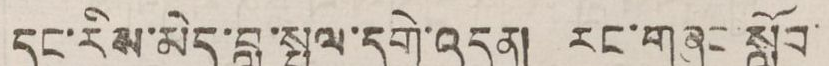དང་རིས་མེད་བླ་སྤྲུལ་དགེ་འདུན། རང་གཞུང་སློབ་
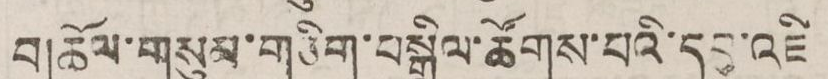བ།ཆོལ་གསུམ་གཅིག་བསྒྲིལ་ཚོགས་པའི་དབུ་འཇི
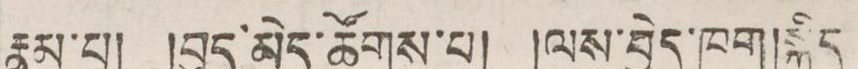རྣམ་པ། །བུད་མེད་ཚོགས་པ། །ལས་བྱེད་ཁག།སྐྱིད་
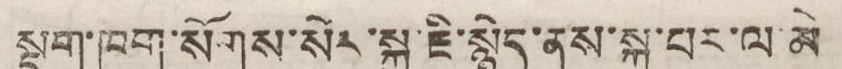སྡུག་ཁག་སོགས་སེར་སྐྱ་ཇི་སྙེད་ནས་སྐུ་པུར་ལ་མེ་
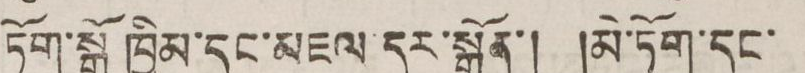ཏོག་སྒོ ཁྱིམ་དང་མཇལ་དར་སྒྲོན་། །མེ་ཏོག་དང་
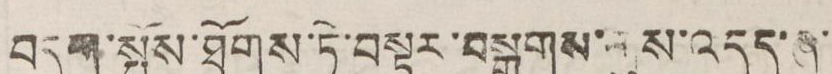བདུག་སྤོས་ཐོགས་ཏེ་བསྟན་བསྒྲགས་གུས་འདུད་ཞུ་
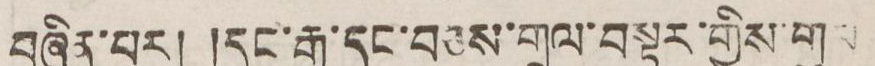བཞིན་པར། །དུང་རྒྱ་དང་བཅས་གྲལ་བསྟར་གྱིས་གུས
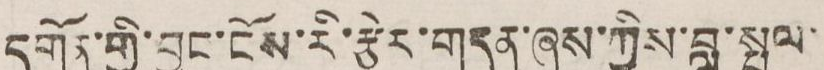དགོན་གྱི་བྱང་ངོས་རི་རྩེར་གདན་ཞུས་ཀྱིས་བླ་སྤྲུལ་
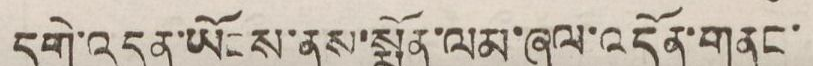དགེ་འདུན་ཡོངས་ནས་སྨོན་ལམ་ཞལ་འདོན་གནང་
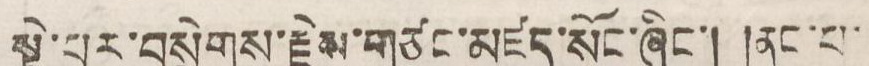སྟེ་པུར་བསྲེགས་རྗེས་གཙང་མཛད་སོང་ཞིང་། །ནང་པ་
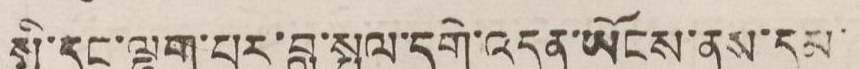སྤྱི་དང་ལྷག་པར་བླ་སྤྲུལ་དགེ་འདུན་ཡོངས་ནས་དམ་
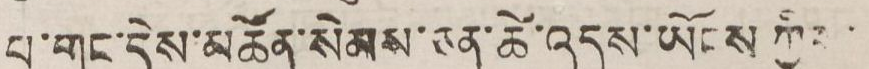པ་གང་དེས་མཚོན་སེམས་ཅན་ཚེ་འདས་ཡོངས ཀྱིས་
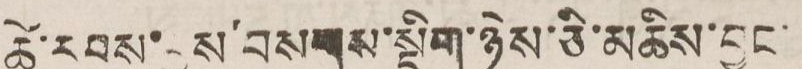ཚེ་རབས་བྱས་བསགས་སྡིག་ཉེས་ཅི་མཆིས་བྱང་
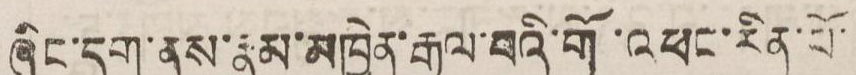ཞིང་དག་ནས་རྣམ་མཁྱེན་རྒྱལ་བའི་གོ་འཕང་རིན་པོ་
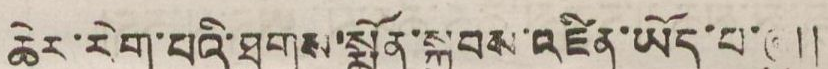ཆེར་རིག་པའི་ཐུགས་སྨོན་སྐྱབས་འཛིན་ཡོད་པ་ཞུ།།
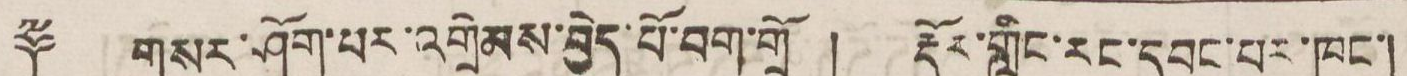༈ གསར་ཤོག་པར་འགྲེམས་བྱེད་པོ་བག་གྲོ ། རྡོར་གླིང་དབང་པར་ཁང་།
